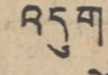འདུག
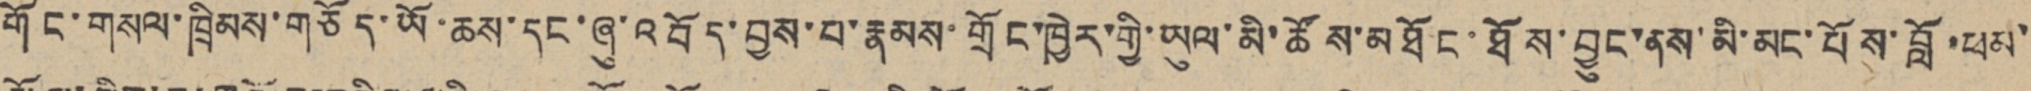གོང་གསལ་ཁྲིམས་གཅོད་ཡོ་ཆས་དང་ཞུ་འབོད་བྱས་པ་རྣམས་གྲོང་ཁྱེར་གྱི་ཡུལ་མི་ཚོས་མཐོང་ཐོས་བྱུང་ནས་མི་མང་པོས་བློ་ཕམ་
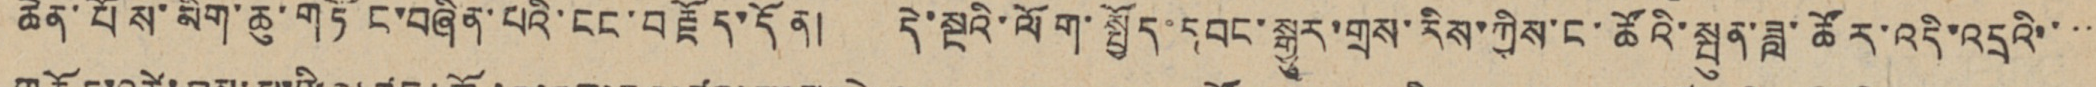ཆེན་པོས་མིག་ཆུ་གཏོང་བཞིན་པའི་ངང་བརྗོད་དོན། དེ་སྔའི་ལོག་སྤྱོད་དབང་སྒྱུར་གྲས་རིས་ཀྱིས་ང་ཚོའི་སྤུན་ཟླ་ཚོར་འདི་འདྲའི་་་་་
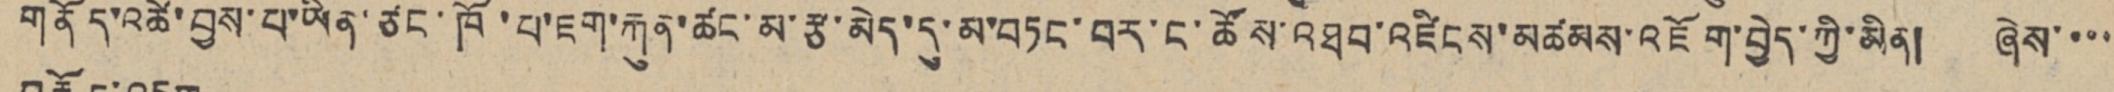གནོད་འཚེ་བྱས་པ་ཡིན་ཚང་ཁོ་པ་ཇག་རྐུན་ཚང་མ་རྩ་མེད་དུ་མ་བཏང་བར་ང་ཚོས་འཐབ་འཛིངས་མཚམས་འཇོག་བྱེད་ཀྱི་མིན། ཞེས་་་་
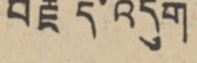བརྗོད་འདུག
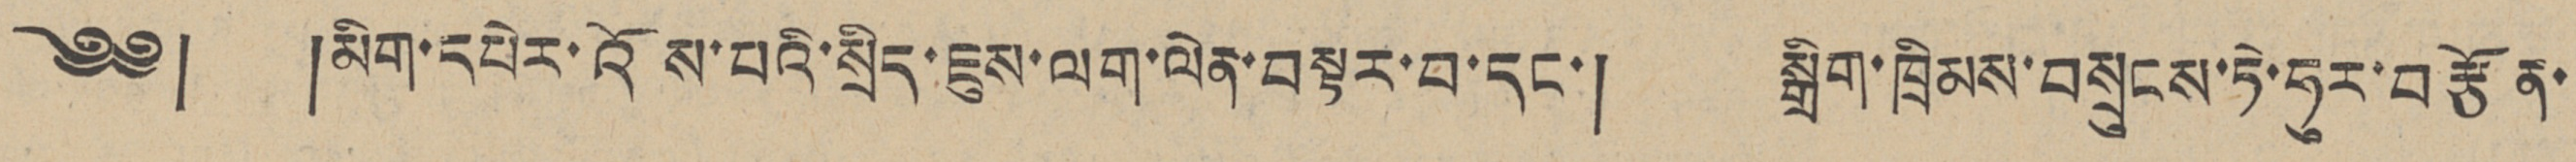༄༅། །མིག་དཔེར་འོས་པའི་སྲིད་ཇུས་ལག་ལེན་བསྟར་བ་དང་། སྒྲིག་ཁྲིམས་བསྲུངས་ཏེ་ཧུར་བརྩོན་
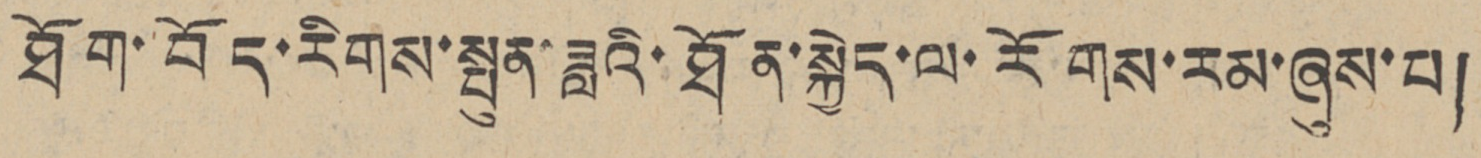ཐོག་བོད་རིགས་སྤུན་ཟླའི་ཐོན་སྐྱེད་ལ་རོགས་རམ་ཞུས་པ།
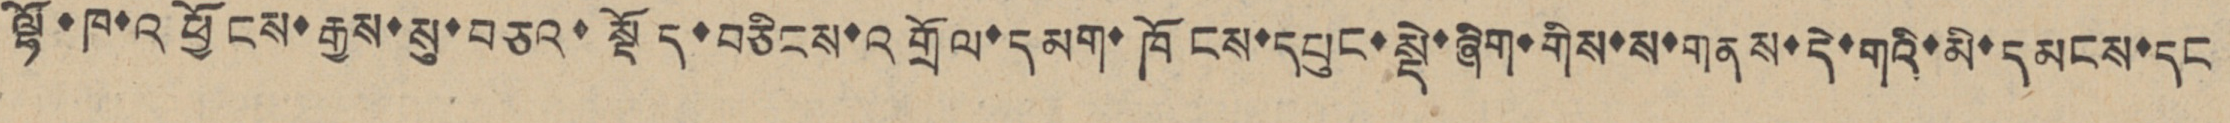ལྷོ་ཁ་འཕྱོངས་རྒྱས་སུ་བཅའ་སྡོད་བཅིངས་འགྲོལ་དམག་ཁོངས་དཔུང་སྡེ་ཞིག་གིས་ས་གནས་དེ་གའི་མི་དམངས་དང
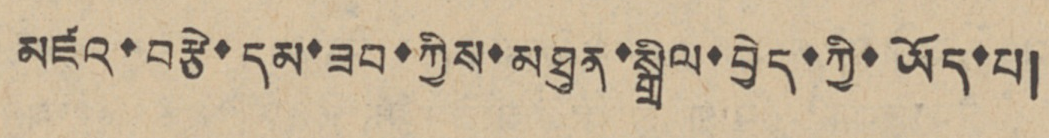མཛའ་བརྩེ་དམ་ཟབ་ཀྱིས་མཐུན་སྒྲིལ་བྱེད་ཀྱི་ཡོད་པ།
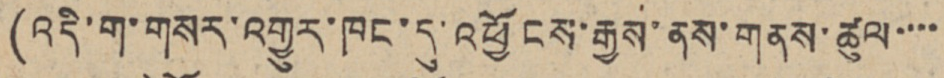(འདི་ག་གསར་འགྱུར་ཁང་དུ་འཕྱོངས་རྒྱས་ནས་གནས་ཚུལ་་་་
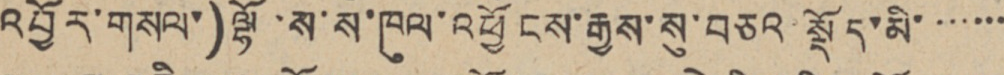འབྱོར་གསལ་)ལྷོ་ས་ས་ཁུལ་འཕྱོངས་རྒྱས་སུ་བཅའ སྡོད་མི་་་་་་་
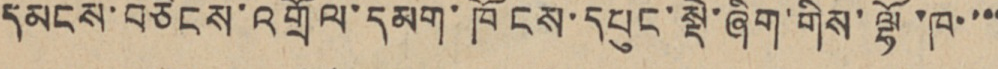དམངས་བཅིངས་འགྲོལ་དམག་ཁོངས་དཔུང་སྡེ་ཞིག་གིས་ལྷོ་ཁ་་་་
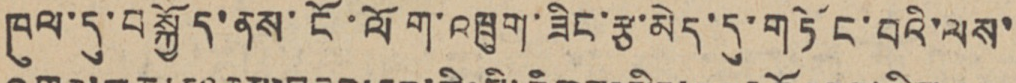ཁུལ་དུ་བསྐྱོད་ནས་ངོ་ལོག་འཁྲུག་ཟིང་རྩ་མེད་དུ་གཏོང་བའི་ལས་
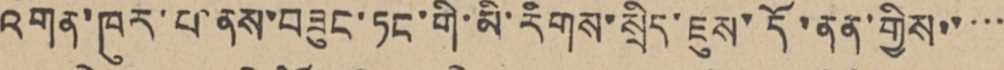འགན་ཁུར་པ་ནས་བཟུང་ཏང་གི་མི་རིགས་སྲིད་ཇུས་དོ་ནན་གྱིས་་་་་
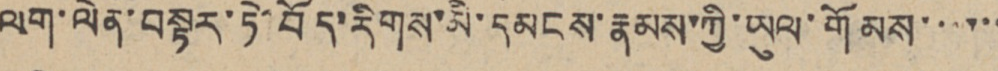ལག་ལེན་བསྟར་ཏེ་བོད་རིགས་མི་དམངས་རྣམས་ཀྱི་ཡུལ་གོམས་་་་་་
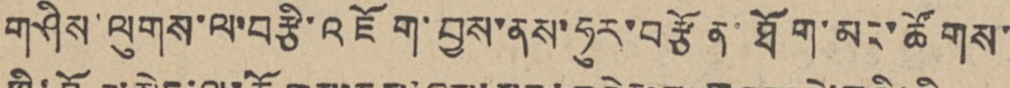གཤིས་ལུགས་ལ་བརྩི་འཇོག་བྱས་ནས་ཧུར་བརྩོན་ཐོག་མང་ཚོགས་
